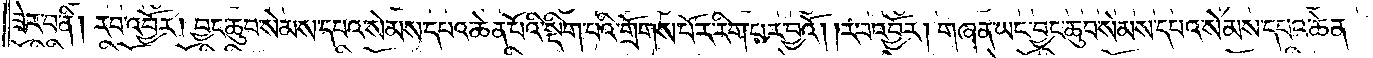ཟེར་བ་ནི། རབ་འབྱོར། བྱང་ཆུབ་སེམས་དཔའ་སེམས་དཔའ་ཆེན་པོའི་སྡིག་པའི་གྲོགས་པོར་རིག་པར་བྱའོ། །རབ་འབྱོར། གཞན་ཡང་བྱང་ཆུབ་སེམས་དཔའ་སེམས་དཔའ་ཆེན་
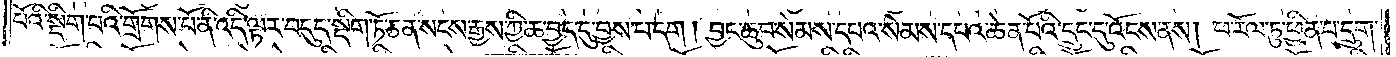པོའི་སྡིག་པའི་གྲོགས་པོ་ནི་འདི་ལྟར་བདུད་སྡིག་ཏོ་ཅན་སངས་རྒྱས་ཀྱི་ཆ་བྱད་དུ་བྱས་པ་དག །བྱང་ཆུབ་སེམས་དཔའ་སེམས་དཔའ་ཆེན་པོའི་དྲུང་དུ་འོངས་ནས། ཕ་རོལ་ཏུ་ཕྱིན་པ་དྲུག་
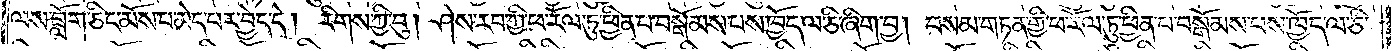ལས་ཟློག་ཅིང་མོས་པ་མེད་པར་བྱེད་དེ། རིགས་ཀྱི་བུ། ཤེས་རབ་ཀྱི་ཕ་རོལ་ཏུ་ཕྱིན་པ་བསྒོམས་པས་ཁྱོད་ལ་ཅི་ཞིག་བྱ། བསམ་གཏན་གྱི་ཕ་རོལ་ཏུ་ཕྱིན་པ་བསྒོམས་པས་ཁྱོད་ལ་ཅི་
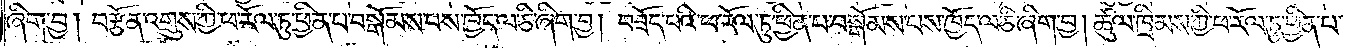ཞིག་བྱ། བརྩོན་འགྲུས་ཀྱི་ཕ་རོལ་ཏུ་ཕྱིན་པ་བསྒོམས་པས་ཁྱོད་ལ་ཅི་ཞིག་བྱ། བཟོད་པའི་ཕ་རོལ་ཏུ་ཕྱིན་པ་བསྒོམས་པས་ཁྱོད་ལ་ཅི་ཞིག་བྱ། ཚུལ་ཁྲིམས་ཀྱི་ཕ་རོལ་ཏུ་ཕྱིན་པ་
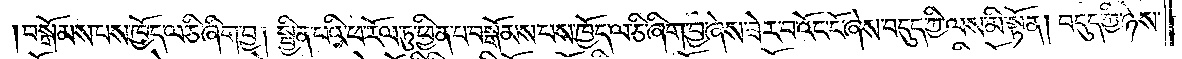བསྒོམས་པས་ཁྱོད་ལ་ཅི་ཞིག་བྱ། སྦྱིན་པའི་ཕ་རོལ་ཏུ་ཕྱིན་པ་བསྒོམས་པས་ཁྱོད་ལ་ཅི་ཞིག་བྱ་ཞེས་ཟེར་བ་འོང་ངོ་ཞེས་བདུད་ཀྱི་ལས་མི་སྟོན། བདུད་ཀྱི་ཉེས་
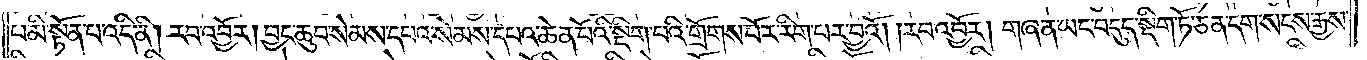པ་མི་སྟོན་པ་འདི་ནི། རབ་འབྱོར། བྱང་ཆུབ་སེམས་དཔའ་སེམས་དཔའ་ཆེན་པོའི་སྡིག་པའི་གྲོགས་པོར་རིག་པར་བྱའོ། །རབ་འབྱོར། གཞན་ཡང་བདུད་སྡིག་ཏོ་ཅན་དག་སངས་རྒྱས་
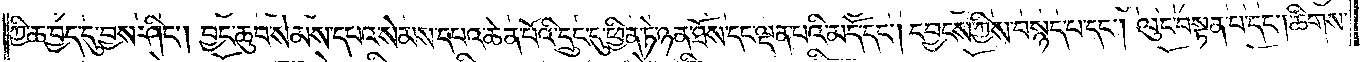ཀྱི་ཆ་བྱད་དུ་བྱས་ཤིང༌། བྱང་ཆུབ་སེམས་དཔའ་སེམས་དཔའ་ཆེན་པོའི་དྲུང་དུ་ཕྱིན་ཏེ་ཉན་ཐོས་དང་ལྡན་པའི་མདོ་དང༌། དབྱངས་ཀྱིས་བསྙད་པ་དང༌། ལུང་བསྟན་པ་དང༌། ཚིགས་
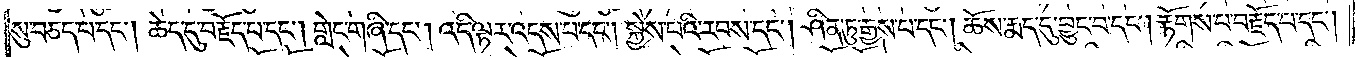སུ་བཅད་པ་དང༌། ཆེད་དུ་བརྗོད་པ་དང༌། གླེང་གཞི་དང༌། འདི་ལྟར་འདས་པ་དང༌། སྐྱེས་པའི་རབས་དང༌། ཤིན་ཏུ་རྒྱས་པ་དང༌། ཆོས་རྨད་དུ་བྱུང་བ་དང༌། རྟོགས་པ་བརྗོད་པ་དང༌།
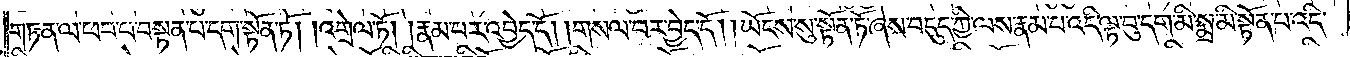གཏན་ལ་ཕབ་པ་བསྟན་པ་དག་སྟོན་ཏོ། །འགྲེལ་ཏོ། །རྣམ་པར་འབྱེད་དོ། །གསལ་བར་བྱེད་དོ། །ཡོངས་སུ་སྟོན་ཏོ་ཞེས་བདུད་ཀྱི་ལས་རྣམ་པ་འདི་ལྟ་བུ་དག་མི་སྨྲ་མི་སྟོན་པ་འདི་
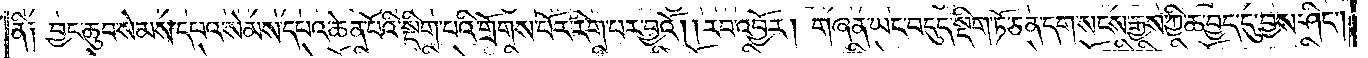ནི༑ བྱང་ཆུབ་སེམས་དཔའ་སེམས་དཔའ་ཆེན་པོའི་སྡིག་པའི་གྲོགས་པོར་རིག་པར་བྱའོ། །རབ་འབྱོར། གཞན་ཡང་བདུད་སྡིག་ཏོ་ཅན་དག་སངས་རྒྱས་ཀྱི་ཆ་བྱད་དུ་བྱས་ཤིང༌།
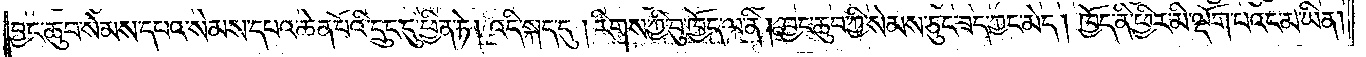བྱང་ཆུབ་སེམས་དཔའ་སེམས་དཔའ་ཆེན་པོའི་དྲུང་དུ་ཕྱིན་ཏེ་འདི་སྐད་དུ། རིགས་ཀྱི་བུ་ཁྱོད་ལ་ནི། བྱང་ཆུབ་ཀྱི་སེམས་ཅུང་ཟད་ཀྱང་མེད། ཁྱོད་ནི་ཕྱིར་མི་ལྡོག་པའང་མ་ཡིན།
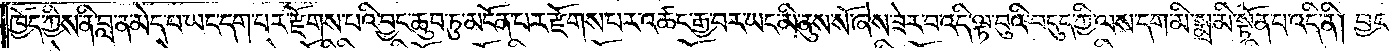ཁྱོད་ཀྱིས་ནི་བླ་ན་མེད་པ་ཡང་དག་པར་རྫོགས་པའི་བྱང་ཆུབ་ཏུ་མངོན་པར་རྫོགས་པར་འཚང་རྒྱ་བར་ཡང་མི་ནུས་སོ་ཞེས་ཟེར་བ་འདི་ལྟ་བུའི་བདུད་ཀྱི་ལས་དག་མི་སྨྲ་མི་སྟོན་པ་འདི་ནི། བྱང་
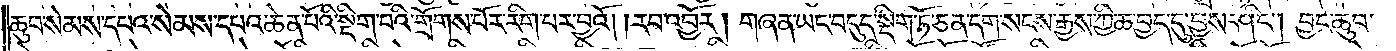ཆུབ་སེམས་དཔའ་སེམས་དཔའ་ཆེན་པོའི་སྡིག་པའི་གྲོགས་པོར་རིག་པར་བྱའོ། །རབ་འབྱོར། གཞན་ཡང་བདུད་སྡིག་ཏོ་ཅན་དག་སངས་རྒྱས་ཀྱི་ཆ་བྱད་དུ་བྱས་ཤིང༌། བྱང་ཆུབ་
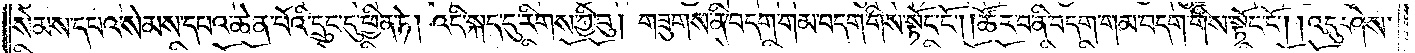སེམས་དཔའ་སེམས་དཔའ་ཆེན་པོའི་དྲུང་དུ་ཕྱིན་ཏེ། འདི་སྐད་དུ་རིགས་ཀྱི་བུ། གཟུགས་ནི་བདག་གམ་བདག་གིས་སྟོང་ངོ༌། །ཚོར་བ་ནི་བདག་གམ་བདག་གིས་སྟོང་ངོ༌། །འདུ་ཤེས་
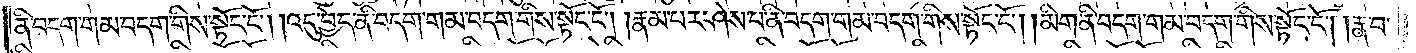ནི་བདག་གམ་བདག་གིས་སྟོང་ངོ༌། །འདུ་བྱེད་ནི་བདག་གམ་བདག་གིས་སྟོང་ངོ༌། །རྣམ་པར་ཤེས་པ་ནི་བདག་གམ་བདག་གིས་སྟོང་ངོ༌། །མིག་ནི་བདག་གམ་བདག་གིས་སྟོང་ངོ༌། །རྣ་བ་
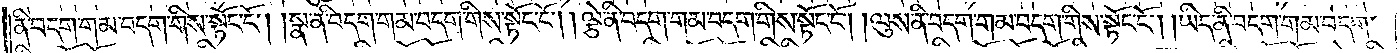ནི་བདག་གམ་བདག་གིས་སྟོང་ངོ༌། །སྣ་ནི་བདག་གམ་བདག་གིས་སྟོང་ངོ༌། །ལྕེ་ནི་བདག་གམ་བདག་གིས་སྟོང་ངོ༌། །ལུས་ནི་བདག་གམ་བདག་གིས་སྟོང་ངོ༌། །ཡིད་ནི་བདག་གམ་བདག་
